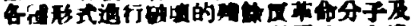各種形式進行破懷的殘餘反革命分子及
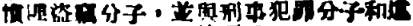慣匪盜竊分子，並與刑事犯罪分子和違
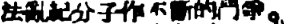法亂紀分子作不斷的鬥爭。
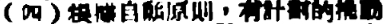（四）根據自願原則，有計劃的推動
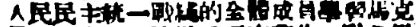人民民主統一戰綫的全體成員學習馬克
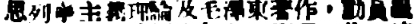思列寧主義理論及毛澤東著作，動員組
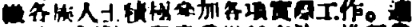織各族人士積極參加各項實際工作。適
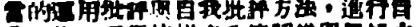當的運用批評與自我批評方法，進行自
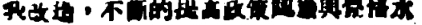我改造，不斷的提高政策認識與覺悟水
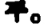平。
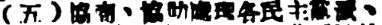（五）協商、協助處理各民主黨派、
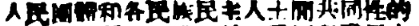人民團體和各民族民主人士間共同性的
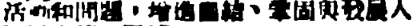活動和問題，增進團結、鞏固與發展人
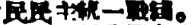民民主統一戰綫。
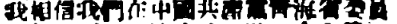我相信我們在中國共產黨靑海省委員
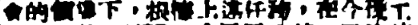會的領導下，根據上述任務，在今後工
